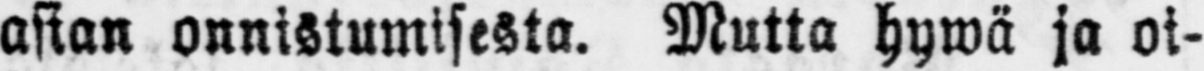asian onnistumisesta. Mutta hywä ja oi-
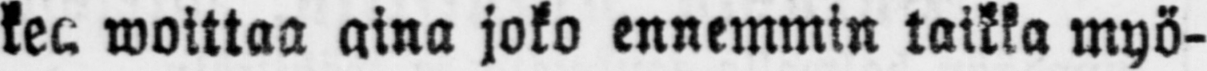kea woittaa aina joko ennemmin taikka myö-
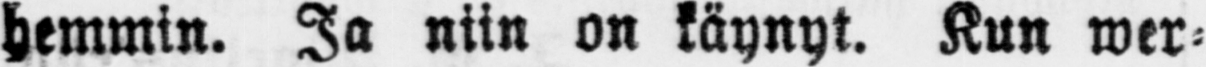hemmin. Ja niin on käynyt. Kun wer-
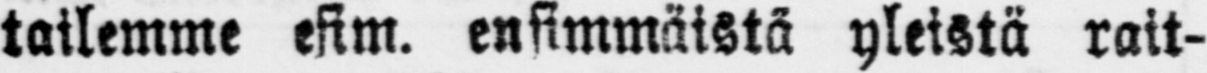tällemme esim. ensimmäistä yleistä rait-
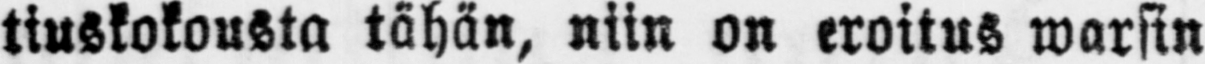tiuskokousta tähän, niin on eroitus warsin
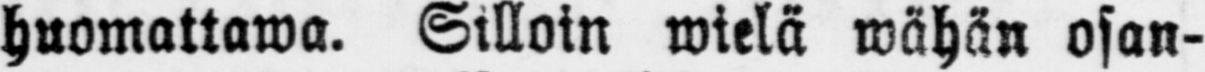huomattawa. Silloin wielä wähän osan-
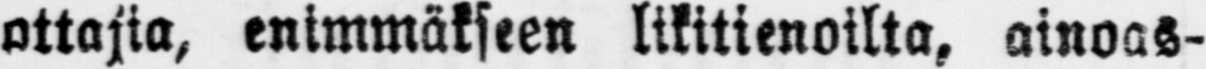ottajia, enimmäkseen likitienoilta, ainoas-
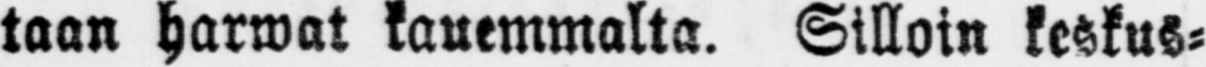taan harwat kauemmalta. Silloin keskus-
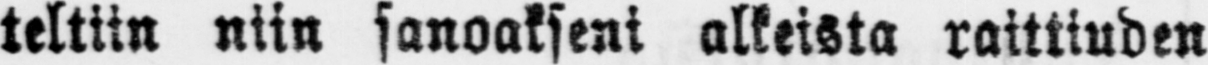teltiin niin sanoakseni alkeista raittiuden
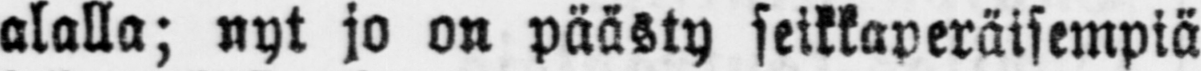alalla; nyt jo on päästy seikkaperäisempiä
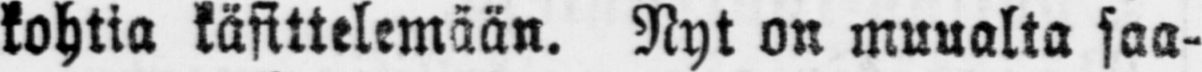kohtia käsittelemään. Nyt on muualta saa-
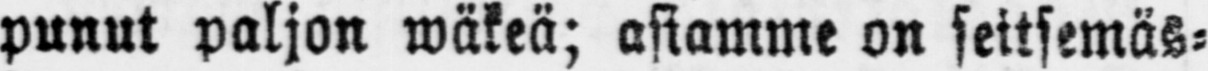punut paljon wäkeä; asiamme on seitsemäs-
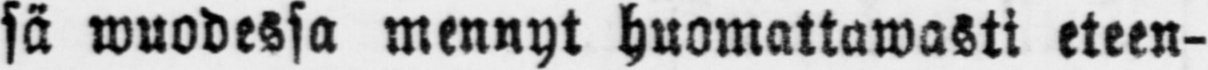sä wuodessa mennyt huomattawasti eteen-
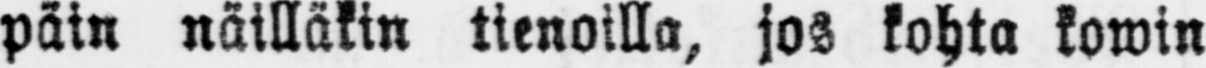päin näilläkin tienoilla, jos kohta kowin
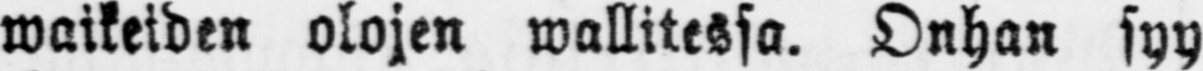waikeiden olojen wallitessa. Onhan syy
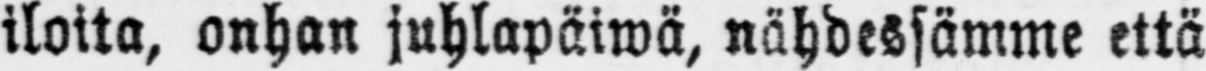iloita, onhan juhlapäiwä, nähdessämme että
